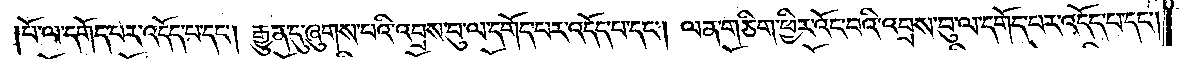པོ་ལ་དགོད་པར་འདོད་པ་དང༌། རྒྱུན་དུ་ཞུགས་པའི་འབྲས་བུ་ལ་དགོད་པར་འདོད་པ་དང༌། ལན་གཅིག་ཕྱིར་འོང་བའི་འབྲས་བུ་ལ་དགོད་པར་འདོད་པ་དང༌།
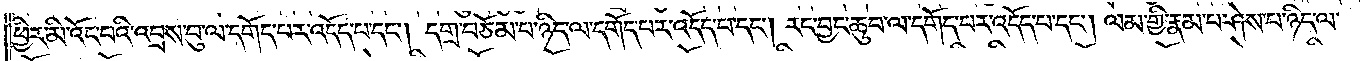ཕྱིར་མི་འོང་བའི་འབྲས་བུ་ལ་དགོད་པར་འདོད་པ་དང༌། དགྲ་བཅོམ་པ་ཉིད་ལ་དགོད་པར་འདོད་པ་དང༌། རང་བྱང་ཆུབ་ལ་དགོད་པར་འདོད་པ་དང༌། ལམ་གྱི་རྣམ་པ་ཤེས་པ་ཉིད་ལ་
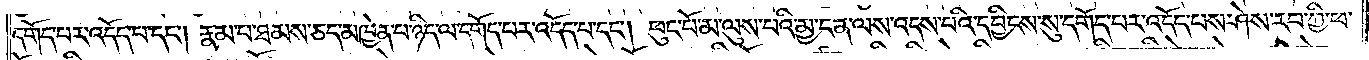དགོད་པར་འདོད་པ་དང༌། རྣམ་པ་ཐམས་ཅད་མཁྱེན་པ་ཉིད་ལ་དགོད་པར་འདོད་པ་དང༌། ཕུང་པོ་མ་ལུས་པའི་མྱ་ངན་ལས་འདས་པའི་དབྱིངས་སུ་དགོད་པར་འདོད་པས་ཤེས་རབ་ཀྱི་ཕ་
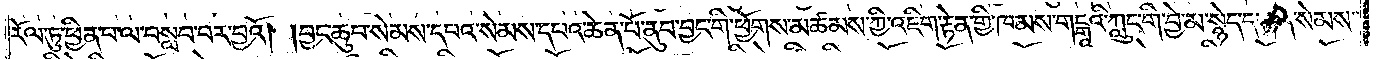རོལ་ཏུ་ཕྱིན་པ་ལ་བསླབ་པར་བྱའོ། །བྱང་ཆུབ་སེམས་དཔའ་སེམས་དཔའ་ཆེན་པོ་ནུབ་བྱང་གི་ཕྱོགས་མཚམས་ཀྱི་འཇིག་རྟེན་གྱི་ཁམས་གངྒཱའི་ཀླུང་གི་བྱེ་མ་སྙེད་དག་ན་སེམས་
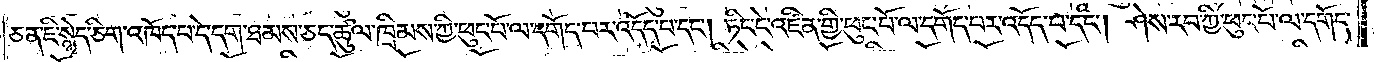ཅན་ཇི་སྙེད་ཅིག་འཁོད་པ་དེ་དག་ཐམས་ཅད་ཚུལ་ཁྲིམས་ཀྱི་ཕུང་པོ་ལ་དགོད་པར་འདོད་པ་དང༌། ཏིང་ངེ་འཛིན་གྱི་ཕུང་པོ་ལ་དགོད་པར་འདོད་པ་དང༌། ཤེས་རབ་ཀྱི་ཕུང་པོ་ལ་དགོད་
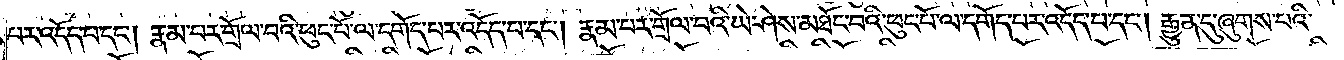པར་འདོད་པ་དང༌། རྣམ་པར་གྲོལ་བའི་ཕུང་པོ་ལ་དགོད་པར་འདོད་པ་དང༌། རྣམ་པར་གྲོལ་བའི་ཡེ་ཤེས་མཐོང་བའི་ཕུང་པོ་ལ་དགོད་པར་འདོད་པ་དང༌། རྒྱུན་དུ་ཞུགས་པའི་
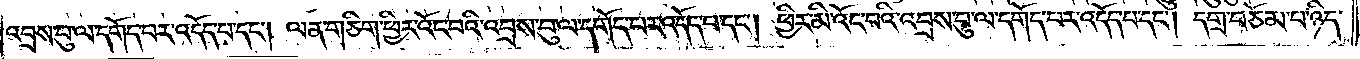འབྲས་བུ་ལ་དགོད་པར་འདོད་པ་དང༌། ལན་གཅིག་ཕྱིར་འོང་བའི་འབྲས་བུ་ལ་དགོད་པར་འདོད་པ་དང༌། ཕྱིར་མི་འོང་བའི་འབྲས་བུ་ལ་དགོད་པར་འདོད་པ་དང༌། དགྲ་བཅོམ་པ་ཉིད་
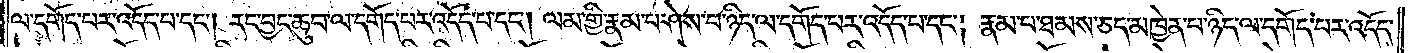ལ་དགོད་པར་འདོད་པ་དང༌། རང་བྱང་ཆུབ་ལ་དགོད་པར་འདོད་པ་དང༌། ལམ་གྱི་རྣམ་པ་ཤེས་པ་ཉིད་ལ་དགོད་པར་འདོད་པ་དང༌། རྣམ་པ་ཐམས་ཅད་མཁྱེན་པ་ཉིད་ལ་དགོད་པར་འདོད་
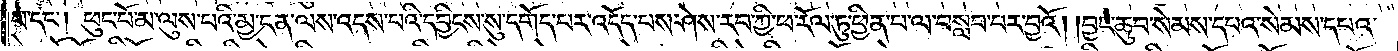པ་དང༌། ཕུང་པོ་མ་ལུས་པའི་མྱ་ངན་ལས་འདས་པའི་དབྱིངས་སུ་དགོད་པར་འདོད་པས་ཤེས་རབ་ཀྱི་ཕ་རོལ་ཏུ་ཕྱིན་པ་ལ་བསླབ་པར་བྱའོ། །བྱང་ཆུབ་སེམས་དཔའ་སེམས་དཔའ་
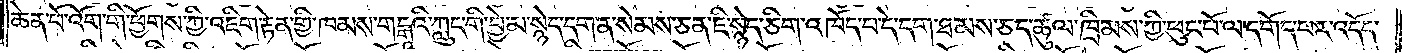ཆེན་པོ་འོག་གི་ཕྱོགས་ཀྱི་འཇིག་རྟེན་གྱི་ཁམས་གངྒཱའི་ཀླུང་གི་བྱེ་མ་སྙེད་དག་ན་སེམས་ཅན་ཇི་སྙེད་ཅིག་འཁོད་པ་དེ་དག་ཐམས་ཅད་ཚུལ་ཁྲིམས་ཀྱི་ཕུང་པོ་ལ་དགོད་པར་འདོད་
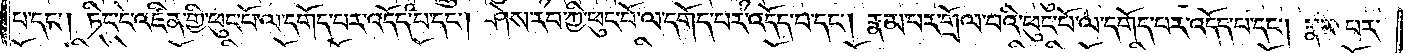པ་དང༌། ཏིང་ངེ་འཛིན་གྱི་ཕུང་པོ་ལ་དགོད་པར་འདོད་པ་དང༌། ཤེས་རབ་ཀྱི་ཕུང་པོ་ལ་དགོད་པར་འདོད་པ་དང༌། རྣམ་པར་གྲོལ་བའི་ཕུང་པོ་ལ་དགོད་པར་འདོད་པ་དང༌། རྣམ་པར་
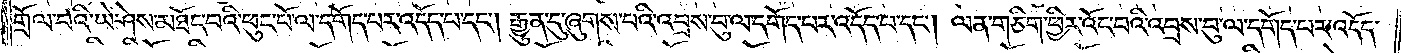གྲོལ་བའི་ཡེ་ཤེས་མཐོང་བའི་ཕུང་པོ་ལ་དགོད་པར་འདོད་པ་དང༌། རྒྱུན་དུ་ཞུགས་པའི་འབྲས་བུ་ལ་དགོད་པར་འདོད་པ་དང༌། ལན་གཅིག་ཕྱིར་འོང་བའི་འབྲས་བུ་ལ་དགོད་པར་འདོད་
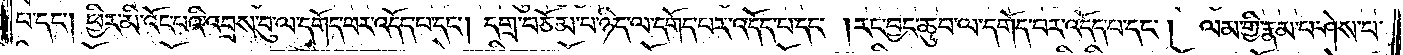པ་དང༌། ཕྱིར་མི་འོང་པའི་འབྲས་བུ་ལ་དགོད་པར་འདོད་པ་དང༌། དགྲ་བཅོམ་པ་ཉིད་ལ་དགོད་པར་འདོད་པ་དང༌། རང་བྱང་ཆུབ་ལ་དགོད་པར་འདོད་པ་དང༌། ལམ་གྱི་རྣམ་པ་ཤེས་པ་
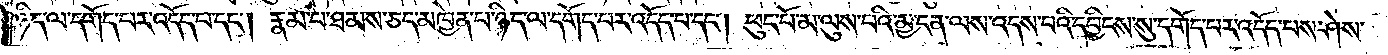ཉིད་ལ་དགོད་པར་འདོད་པ་དང༌། རྣམ་པ་ཐམས་ཅད་མཁྱེན་པ་ཉིད་ལ་དགོད་པར་འདོད་པ་དང༌། ཕུང་པོ་མ་ལུས་པའི་མྱ་ངན་ལས་འདས་པའི་དབྱིངས་སུ་དགོད་པར་འདོད་པས་ཤེས་
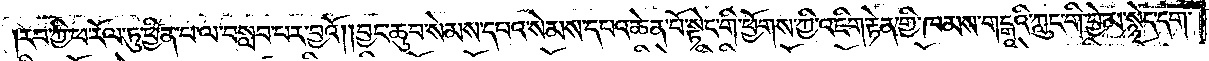རབ་ཀྱི་ཕ་རོལ་ཏུ་ཕྱིན་པ་ལ་བསླབ་པར་བྱའོ། །བྱང་ཆུབ་སེམས་དཔའ་སེམས་དཔའ་ཆེན་པོ་སྟེང་གི་ཕྱོགས་ཀྱི་འཇིག་རྟེན་གྱི་ཁམས་གངྒཱའི་ཀླུང་གི་བྱེ་མ་སྙེད་དག་
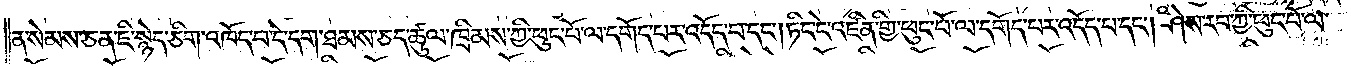ན་སེམས་ཅན་ཇི་སྙེད་ཅིག་འཁོད་པ་དེ་དག་ཐམས་ཅད་ཚུལ་ཁྲིམས་ཀྱི་ཕུང་པོ་ལ་དགོད་པར་འདོད་པ་དང༌། ཏིང་ངེ་འཛིན་གྱི་ཕུང་པོ་ལ་དགོད་པར་འདོད་པ་དང༌། ཤེས་རབ་ཀྱི་ཕུང་པོ་ལ་
